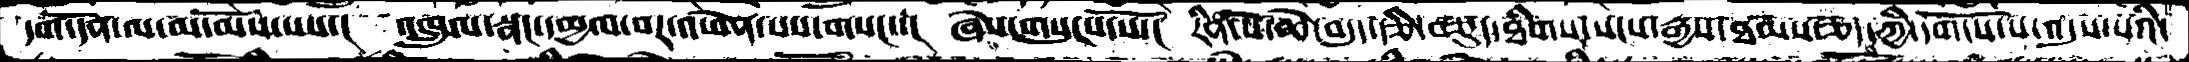དག་དོན་ལ་མ་མོས་པས་།  འཁྲུལ་སྣང་དམྱལ་བར་འཕེན་པས་གསང་་།  ཞེས་གསུངས་སོ་།  རིན་པོ་ཆེ་བདུད་རྩི་བཅུད་ཐིགས་སངས་རྒྱས་ཐམས་ཅད་ཀྱི་དགོངས་པ་འདུས་པའི་
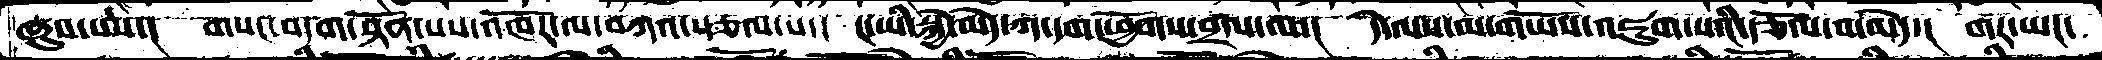ཞུས་པས་།  གསང་བདག་སྟོན་པས་འཁོར་ལ་བཀའ་སྩལ་པ་།   ང་ཡི་སྐྱེ་མེད་ཀ་དག་ཕྱོགས་བྲལ་ལ་།  དེ་ལས་མ་གཡོས་འཇུག་པའི་རྩོལ་བ་མེད་།  གར་ཡང་
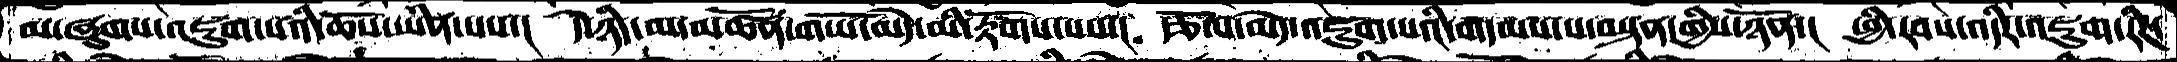མ་ཞུགས་འཇུག་པའི་ཆོས་ཡིན་པས་།  དེ་ཉིད་མ་མཚོན་གཡོ་མེད་མི་རྟོགས་པས་།   རྩོལ་མེད་འཇུག་པའི་གདམས་པ་བསྟན་གྱིས་ཉོན་།  ཕྱི་རབས་འདིར་འཇུག་རིཌ
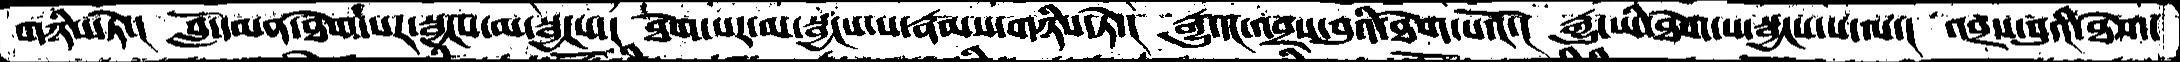གཉིས་ཏེ་།  བློ་དམན་ཐེག་པར་སྦྱངས་མ་སྦྱངས་།  ཐེག་པར་མ་སྦྱངས་པ་རྣམས་གཉིས་ཏེ་།  རྒྱུ་དང་འབྲས་བུའི་ཐེག་པའོ་།  རྒྱུ་ཡི་ཐེག་པ་སྦྱངས་པ་ལ་།  འབྲས་བུའི་ཐེག་
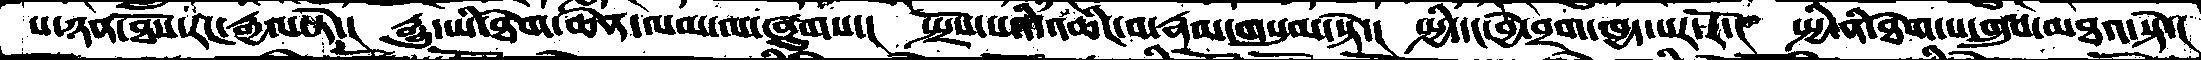པ་ཉན་ཐོས་རང་རྒྱལ་ཏེ་།  རྒྱུ་ཡི་ཐེག་ཆེན་ལམ་ལ་ཞུགས་།  སྤྲོས་པའི་འཆིང་བ་རྣམ་གསུམ་སྟེ་།  སྤྱི་དང་བྱེ་བྲག་ཁྱད་པར་རོ་།  སྤྱི་ནི་ཐེག་པ་གྲུབ་མཐའ་སྟེ་།
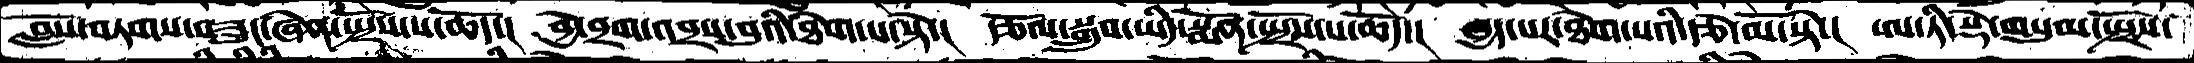བློས་བཏགས་བཟུང་ཞེན་སྤྲོས་པ་ཆོད་།  བྱེ་བྲག་འབྲས་བུའི་ཐེག་པ་སྟེ་།  རྩོལ་སྒྲུབ་ཡིས་སྨོན་སྤྲོས་པ་ཆོད་།  ཁྱད་པར་ཐེག་པའི་རྩེ་མོ་སྟེ་།  ཨ་ཏི་སྡེ་གསུམ་སྤྲོས་
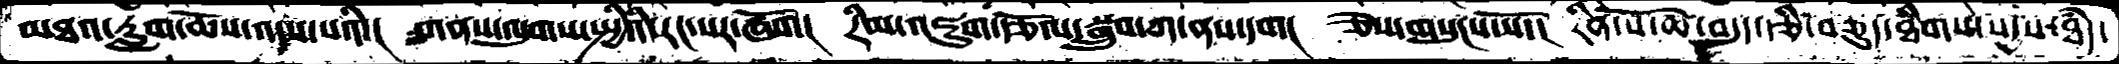མཐའ་རླག་ཆོས་འདས་པའི་།  གནས་ལུགས་སྤྱིའི་རང་སར་ཞོག།  རིམ་འཇུག་རྩོལ་སྒྲུབ་ཀ་ནས་དག།  ཅེས་གསུངས་སོ་།  རིན་པོ་ཆེ་བདུད་རྩི་བཅུད་ཐིགས་སདྱས་ཐདཾ་
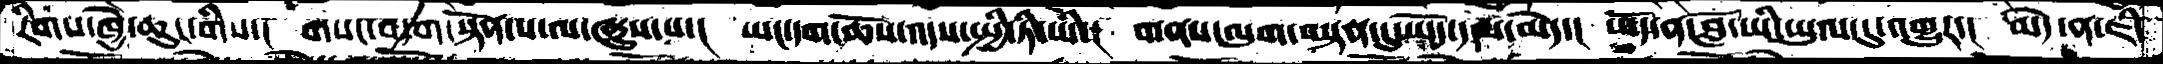རིགས་ཁྱེ་ཆུང་གིས་།  གསང་བདག་སྟོན་པ་ལ་ཞུས་པ་།  ཡང་དག་ཆོས་འདས་སྤྱི་ཏི་ཡི་།  གནས་ལུག་བསྟན་དུ་ཡོད་དམ་མེད་།  ཡོད་ན་བློ་ཡི་ཡུལ་དུ་འགྱུར་།  མེད་ན་ཇི་
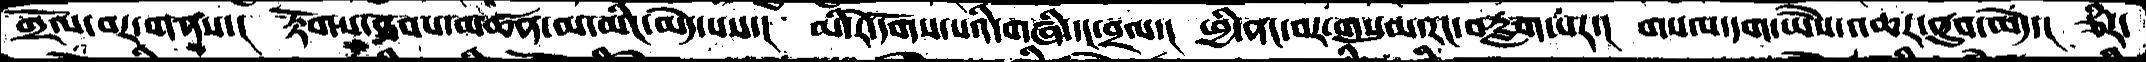གྲོལ་བར་གནས་།  རྟོགས་ཐབས་མཚན་མ་མིང་མེད་པས་།  མི་རེ་དོགས་པའི་གཞི་དང་བྲལ་།  ཕྱི་ནང་བར་གསུམ་རང་བརླག་པར་།  གསལ་དག་ཡཻས་འཆར་ནུབ་མེད་།  ཅིར་
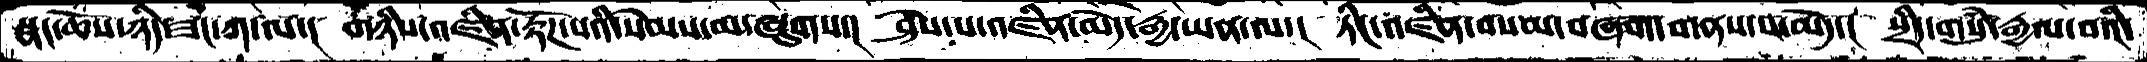སྣང་ཆོས་ཉིད་ཟང་ཀ་ལ་།  གཉིས་འཛིན་རྟོཌ་པའི་སེམས་མ་ཞུགས་།  ཤེས་པ་འཛིན་མེད་རྒྱ་ཡན་ལ་།  ཏིང་འཛིན་བསམ་བཞག་གནས་པ་མེད་།  སྲིད་གསུཾ་རྒྱལ་བའི་
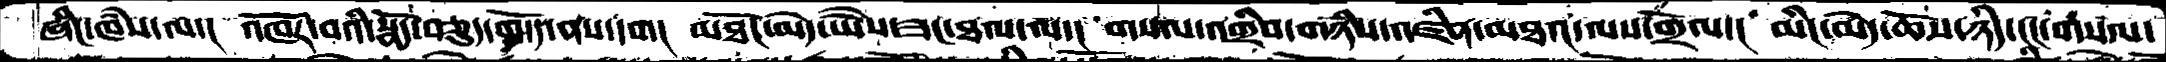ཞིང་ཁཾས་ལ་།  འཁོར་བའི་སྣོད་བཅུད་གོདད་ནས་དག་།  མཐོང་མེད་ཡཻས་ཟང་ཐལ་ལ་།  གསལ་འགྲིབ་གཉིས་འཛིན་མཐའ་ལས་གྲོལ་།  མིང་མེད་ཆོས་ཉིད་ངང་གསལ་
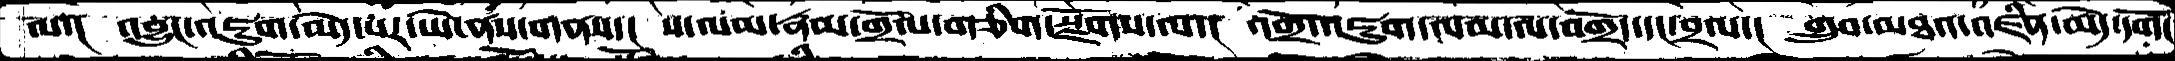ལ་།  འབྱུང་འཇུག་མེད་པར་ཡེ་ནས་གནས་།  ས་ལམ་རྣམ་གྲོལ་གཅིག་སྫོགས་ལ་།  འགྲོ་འཇུག་ལམ་ལ་བགྲོད་དང་བྲལ་།  གྲུབ་མཐའ་འཛིན་མེད་དགོང་
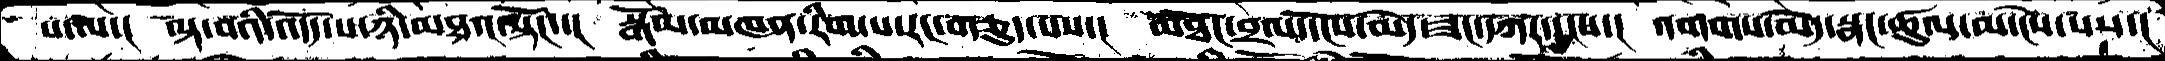པ་ལ་།  ལྟ་བའི་འདོད་པ་ཉི་མཐའ་སྟོང་་།  སྒོམ་མཁན་རིག་པ་རང་གཅུད་པས་།  མཐོང་བྲལདངོས་མེད་ཟང་དཀར་དངས་།  འགགས་མེད་སྣང་ཚུལ་མ་ངེས་པས་།
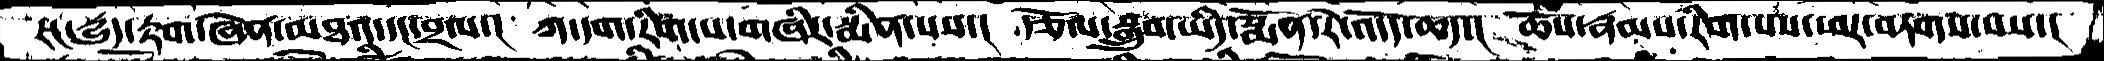རང་དྱུད་རྟོག་ཞེན་མཐའ་དང་བྲལ་།  ཀ་དག་རིག་པ་གཞིར་སྨིན་པས་།  རྩོལ་སྒྲུབ་ཡིད་སྨོན་རེ་འདོད་ཆད་།  ཆོས་རྣམས་རིག་པས་ཕར་བཏགས་པས་།
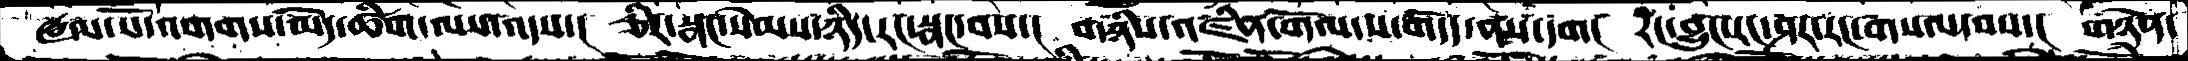ཝལ་པོ་འགགས་མེད་ཚིག་ལས་འདས་།  ཅིར་སྣང་སེམས་ཉིད་རང་སྣང་བས་།  གཉིས་འཛིན་གོལ་ས་གདོད་ནས་དག།  རང་བྱུང་རང་ཤར་རང་གསལ་བས་།  གཉེན་
